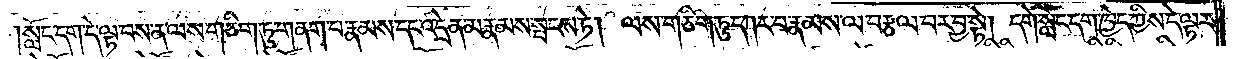།སློང་དག་དེ་ལྟ་བས་ན་ལས་གཅིག་ཏུ་གནག་པ་རྣམས་དང་འདྲེན་མ་རྣམས་སྤངས་ཏེ། ལས་གཅིག་ཏུ་དཀར་བ་རྣམས་ལ་བརྩལ་བར་བྱ་སྟེ། དགེ་སློང་དག་ཁྱེད་ཀྱིས་དེ་ལྟར་
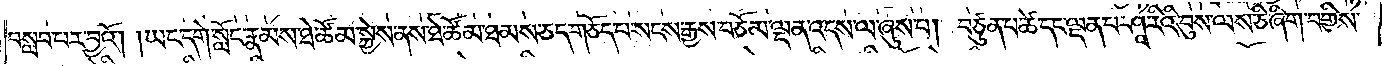བསླབ་པར་བྱའོ། །ཡང་དགེ་སློང་རྣམས་ཐེ་ཚོམ་སྐྱེས་ནས་ཐེ་ཚོམ་ཐམས་ཅད་གཅོད་པ་སངས་རྒྱས་བཅོམ་ལྡན་འདས་ལ་ཞུས་པ། བཙུན་པ་ཚེ་དང་ལྡན་པ་ཤཱ་རིའི་བུས་ལས་ཅི་ཞིག་བགྱིས་
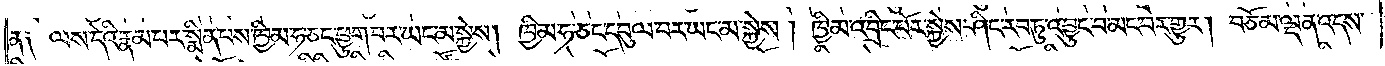ན༑ ལས་དེའི་རྣམ་པར་སྨིན་པས་ཁྱིམ་ཧ་ཅང་ཕྱུག་པར་ཡང་མ་སྐྱེས། ཁྱིམ་ཧ་ཅང་དབུལ་བར་ཡང་མ་སྐྱེས། ཁྱིམ་འབྲིང་པོར་སྐྱེས་ཤིང་རབ་ཏུ་འབྱུང་བ་མང་བར་གྱུར། བཅོམ་ལྡན་འདས་
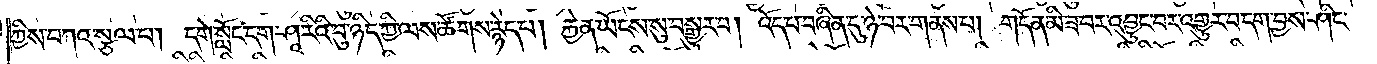ཀྱིས་བཀའ་སྩལ་པ། དགེ་སློང་དག་ཤཱ་རིའི་བུ་ཉིད་ཀྱི་ལས་ཚོགས་རྙེད་པ། རྐྱེན་ཡོངས་སུ་བསྒྱུར་བ། འོད་པ་བཞིན་དུ་ཉེ་བར་གནས་པ། གདོན་མི་ཟ་བར་འབྱུང་བར་འགྱུར་བ་དག་བྱས་ཤིང་
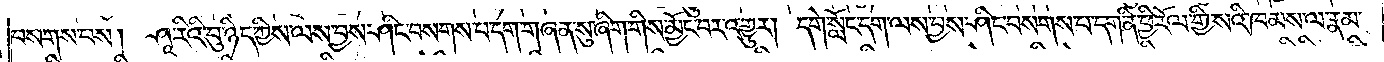བསགས་པས། ཤཱ་རིའི་བུ་ཉིད་ཀྱིས་ལས་བྱས་ཤིང་བསགས་པ་དག་གཞན་སུ་ཞིག་གིས་མྱོང་བར་འགྱུར། དགེ་སློང་དག་ལས་བྱས་ཤིང་བསགས་པ་དག་ནི་ཕྱི་རོལ་གྱི་སའི་ཁམས་ལ་རྣམ་
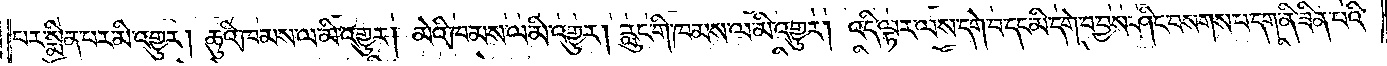པར་སྨིན་པར་མི་འགྱུར། ཆུའི་ཁམས་ལ་མི་འགྱུར། མེའི་ཁམས་ལ་མི་འགྱུར། རླུང་གི་ཁམས་ལ་མི་འགྱུར། འདི་ལྟར་ལས་དགེ་བ་དང་མི་དགེ་བ་བྱས་ཤིང་བསགས་པ་དག་ནི་ཟིན་པའི་
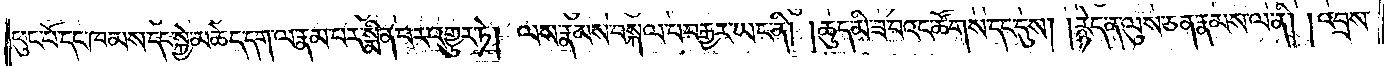ཕུང་པོ་དང་ཁམས་དང་སྐྱེ་མཆེད་དག་ལ་རྣམ་པར་སྨིན་པར་འགྱུར་ཏེ། ལས་རྣམས་བསྐལ་བ་བརྒྱར་ཡང་ནི། །ཆུད་མི་ཟ་བའང་ཚོགས་དང་དུས། །རྙེད་ན་ལུས་ཅན་རྣམས་ལ་ནི། །འབྲས་
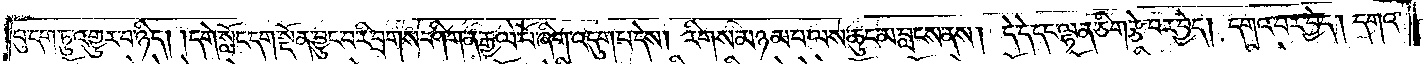བུ་དག་ཏུ་འགྱུར་བ་ཉིད། །དགེ་སློང་དག་སྔོན་བྱུང་བ་རི་བྲགས་ཤིག་ན་རྒྱལ་པོ་ཞིག་འདུག་པ་དེས། རིགས་མཉམ་པ་ལས་ཆུང་མ་བླངས་ནས། དེ་དེ་དང་ལྷན་ཅིག་རྩེ་བར་བྱེད། དགའ་བར་བྱེད། དགའ་
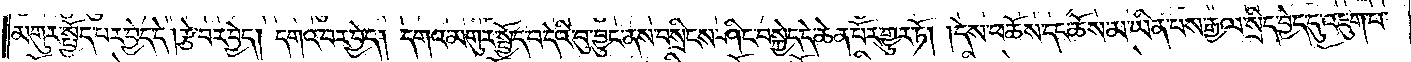མགུར་སྤྱོད་པར་བྱེད་དེ་།རྩེ་བར་བྱེད། དགའ་བར་བྱེད། དགའ་མགུར་སྤྱོད་པ་དེའི་བུ་བྱུང་ནས་བསྲིངས་ཤིང་བསྐྱེད་དེ་ཆེན་པོར་གྱུར་ཏོ། །དེས་ཕ་ཆོས་དང་ཆོས་མ་ཡིན་པས་རྒྱལ་སྲིད་བྱེད་དུ་འཇུག་པ་
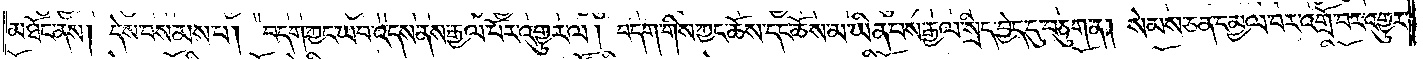མཐོང་ནས། དེས་བསམས་པ། བདག་ཀྱང་ཡབ་འདས་ནས་རྒྱལ་པོར་འགྱུར་ལ། བདག་གིས་ཀྱང་ཆོས་དང་ཆོས་མ་ཡིན་པས་རྒྱལ་སྲིད་བྱེད་དུ་བཅུག་ན། སེམས་ཅན་དམྱལ་བར་འགྲོ་བར་འགྱུར་
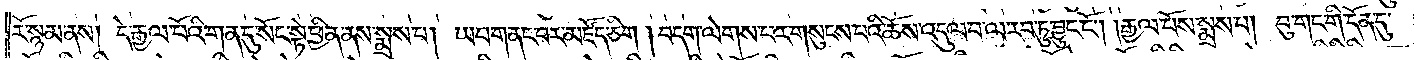རོ་སྙམ་ནས། དེ་རྒྱལ་པོའི་གན་དུ་སོང་སྟེ་ཕྱིན་ནས་སྨྲས་པ། ཡབ་གནང་བར་མཛོད་ཅིག །བདག་ལེགས་པར་གསུངས་པའི་ཆོས་འདུལ་བ་ལ་རབ་ཏུ་བྱུང་ངོ༌། །རྒྱལ་པོས་སྨྲས་པ། བུ་གང་གི་དོན་དུ་
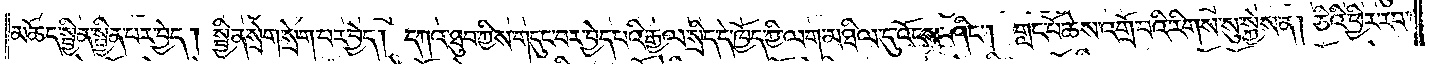མཆོད་སྦྱིན་སྦྱིན་པར་བྱེད། སྦྱིན་སྲེག་སྲེག་པར་བྱེད། དཀའ་ཐུབ་ཀྱིས་གདུང་བར་བྱེད་པའི་རྒྱལ་སྲིད་དེ་ཁྱོད་ཀྱི་ལག་མཐིལ་དུ་འོངས་ཤིང༌། གླང་པོ་ཆེས་འགྲོ་བའི་རིགས་སུ་སྐྱེས་ན། ཅིའི་ཕྱིར་རབ་
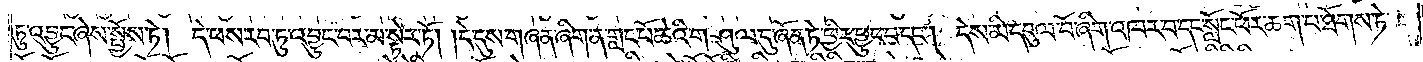ཏུ་འབྱུང་ཞེས་སྤྱོས་ཏེ། དེ་ཕས་རབ་ཏུ་འབྱུང་བར་མ་སྟེར་ཏོ། །དེ་དུས་གཞན་ཞིག་ན་གླང་པོ་ཆེའི་གཤུལ་དུ་ཞོན་ཏེ་ཕྱིར་ཕྱུང་བ་དང༌། དེས་མི་དབུལ་པོ་ཞིག་འཁར་བ་དང་སློང་ཕོར་ཆག་པ་ཐོགས་ཏེ་
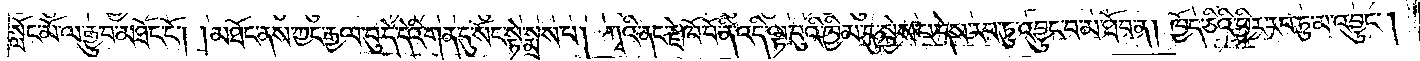སློང་མོ་ལ་རྒྱུ་བ་མཐོང་ངོ༌། །མཐོང་ནས་ཀྱང་རྒྱལ་བུ་དེ་དེའི་གན་དུ་སོང་སྟེ་སྨྲས་པ། ཀྭའི་ནང་རྗེ་ཁོ་བོ་ནི་འདི་ལྟ་བུའི་ཁྱིམ་དུ་སྐྱེས་པ་དེས་རབ་ཏུ་འབྱུང་བ་མ་ཐོབ་ན། ཁྱོད་ཅིའི་ཕྱིར་རབ་ཏུ་མ་འབྱུང༌།
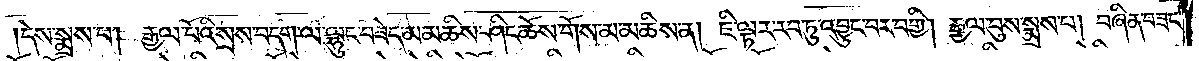དེས་སྨྲས་པ། རྒྱལ་པོའི་སྲས་བདག་ལ་ལྷུང་བཟེད་མ་མཆིས་ཤིང་ཆོས་གོས་མ་མཆིས་ན། ཇི་ལྟར་རབ་ཏུ་འབྱུང་བར་བགྱི། རྒྱལ་བུས་སྨྲས་པ། བཞིན་བཟང་
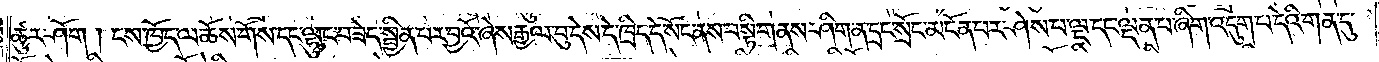ཚུར་ཤོག །ངས་ཁྱོད་ལ་ཆོས་གོས་དང་ལྷུང་བཟེད་སྦྱིན་པར་བྱའོ་ཞེས་རྒྱལ་བུ་དེས་དེ་ཁྲིད་དེ་སོང་ནས་བསྟི་གནས་ཤིག་ན་དྲང་སྲོང་མངོན་པར་ཤེས་པ་ལྔ་དང་ལྡན་པ་ཞིག་འདུག་པ་དེའི་གན་དུ་
